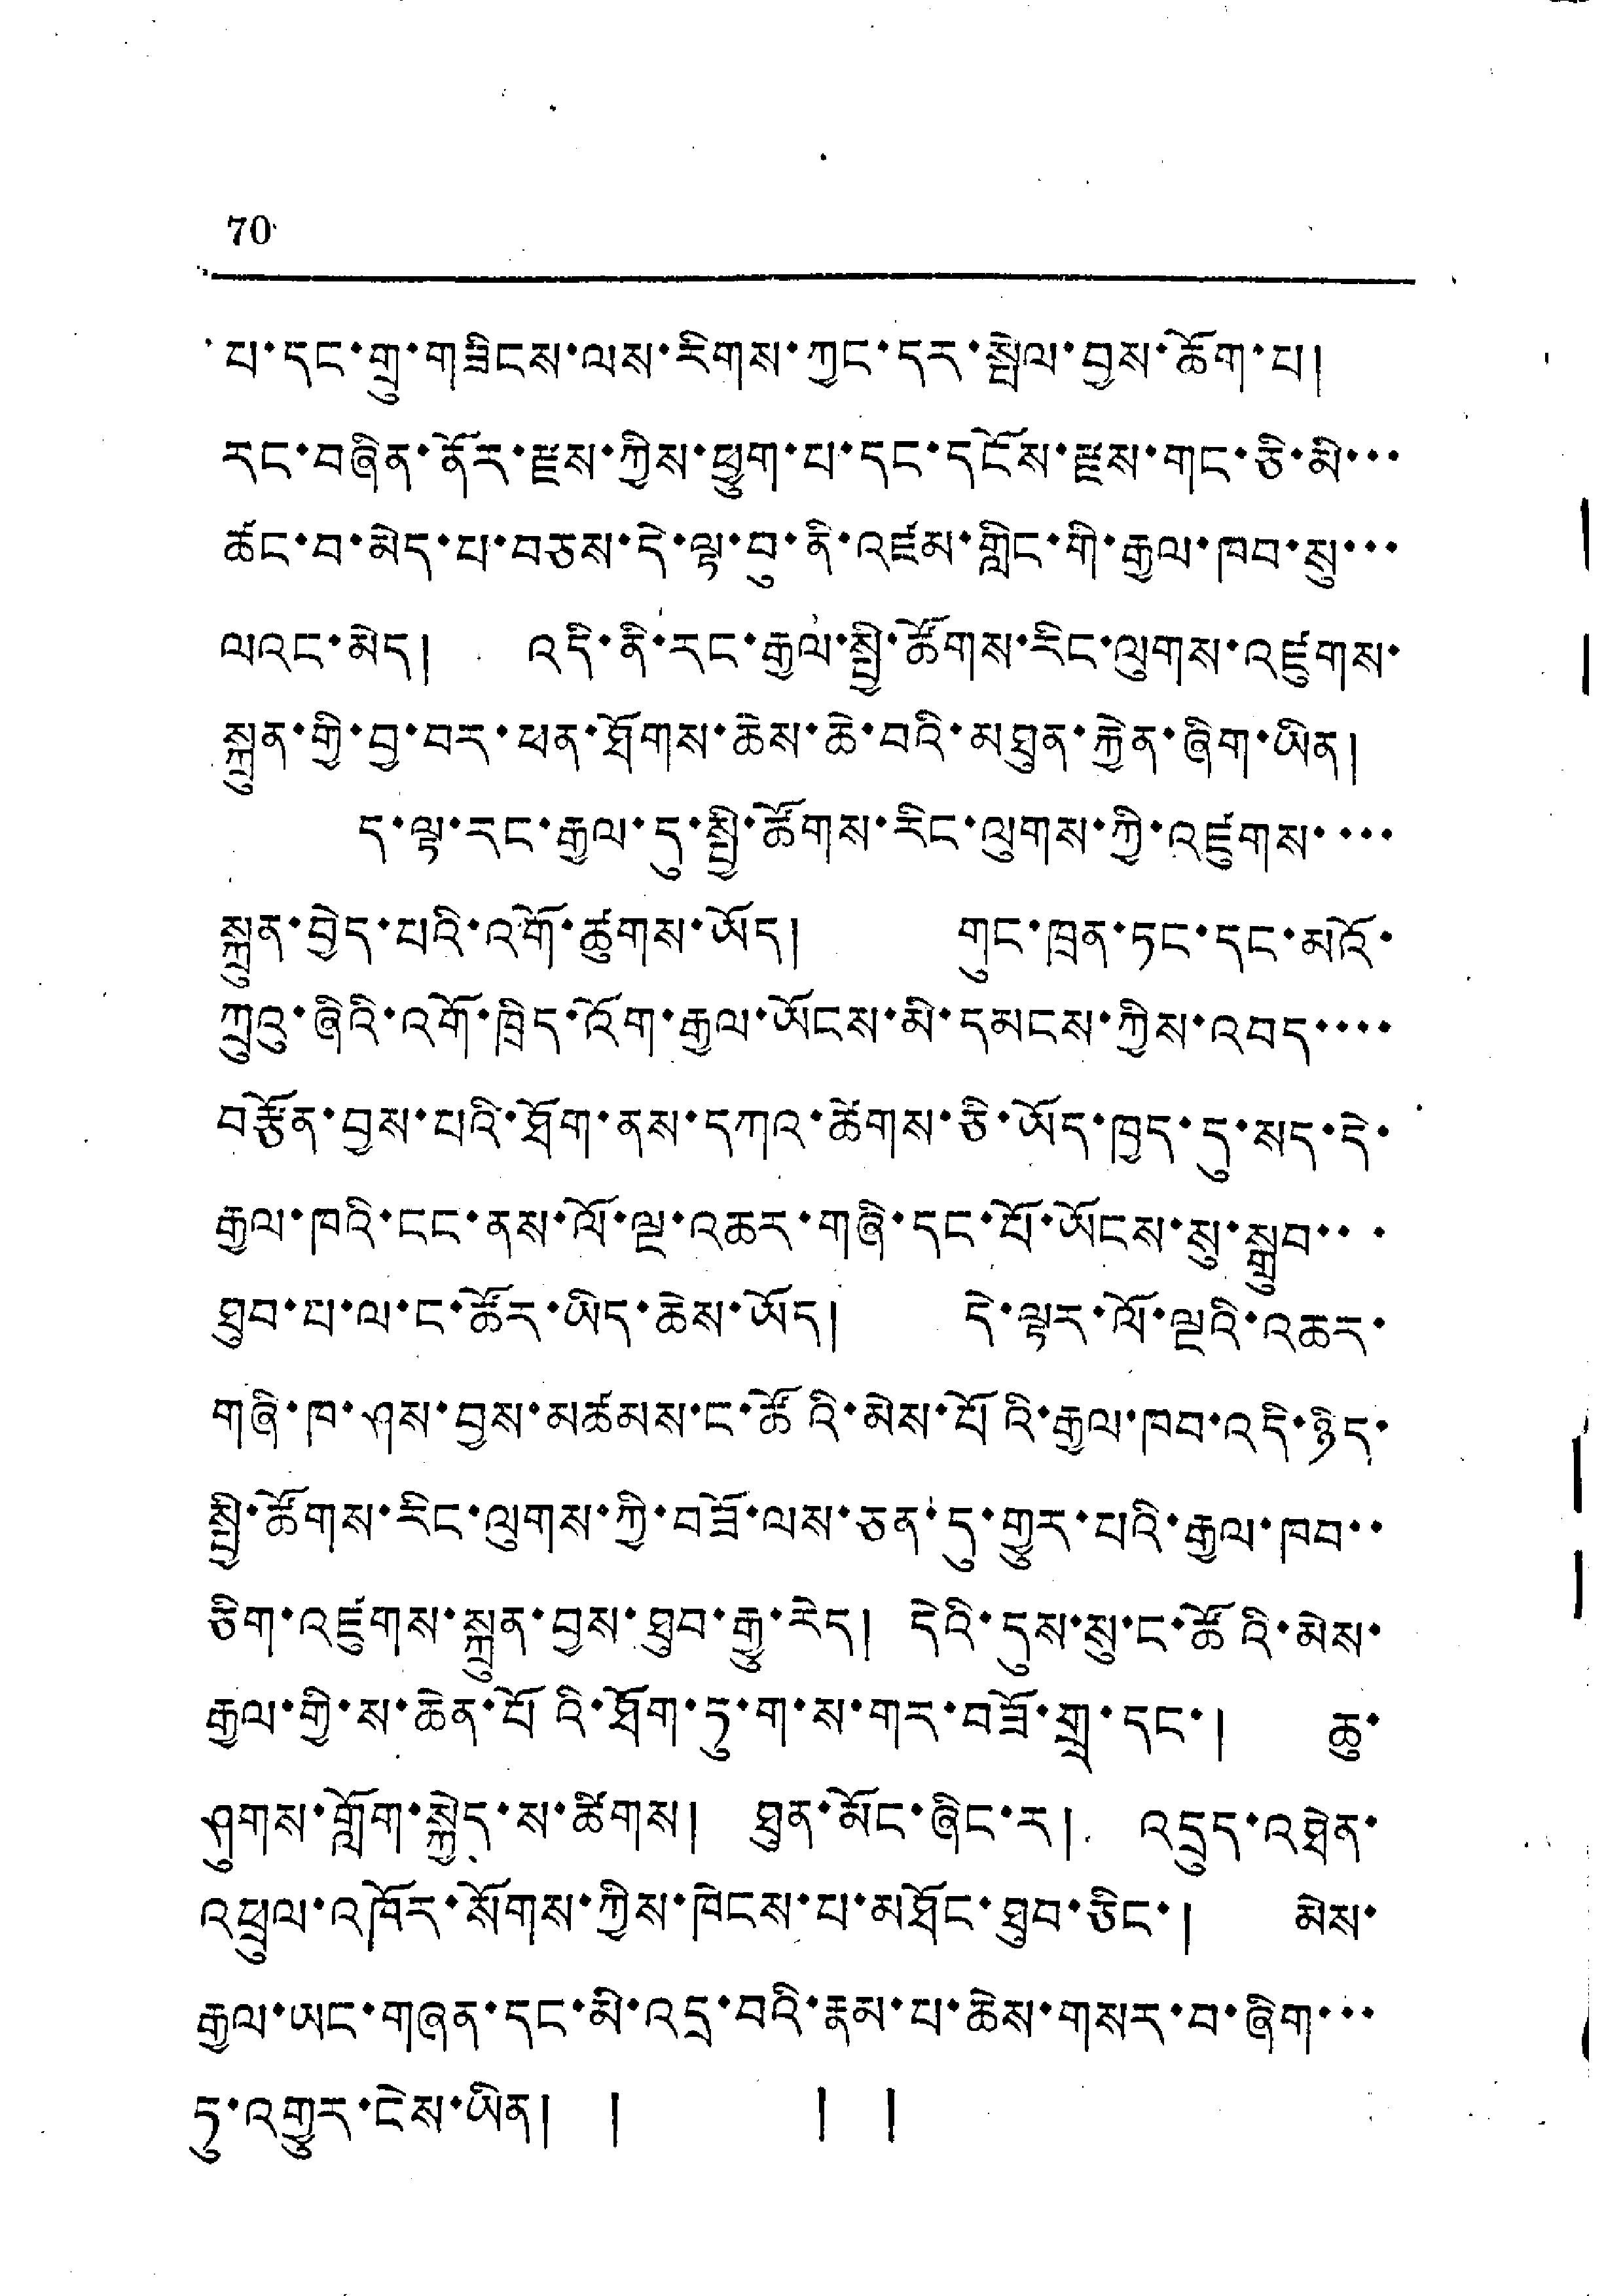70
པ་དང་གྲུ་གཟིངས་ལས་རིགས་ཀྱང་དར་སྤེལ་བྱས་ཆོག་པ།
རང་བཞིན་ནོར་རྫས་ཀྱིས་ཕྱུག་པ་དང་དངོས་རྫས་གང་ཅི་མི་་་
ཚང་བ་མེད་པ་བཅས་དེ་ལྟ་བུ་ནི་འཛམ་གླིང་གི་རྒྱལ་ཁབ་སུ་་་
ལའང་མེད། འདི་ནི་རང་རྒྱལ་སྤྱི་ཚོགས་རིང་ལུགས་འཛུགས་
སྐྲུན་གྱི་བྱ་བར་ཕན་ཐོགས་ཆེས་ཆེ་བའི་མཐུན་རྐྱེན་ཞིག་ཡིན།
ད་ལྟ་རང་རྒྱལ་དུ་སྤྱི་ཚོགས་རིང་ལུགས་ཀྱི་འཛུགས་་་་
སྐྲུན་བྱེད་པའི་འགོ་ཚུགས་ཡོད། གུང་ཁྲན་ཏང་དང་མའོ་
ཀྲུའུ་ཞིའི་འགོ་ཁྲིད་འོག་རྒྱལ་ཡོངས་མི་དམངས་ཀྱིས་འབད་་་་
བརྩོན་བྱས་པའི་ཐོག་ནས་དཀའ་ཚེགས་ཅི་ཡོད་ཁྱད་དུ་སད་དེ་
རྒྱལ་ཁའི་ངང་ནས་ལོ་ལྔ་འཆར་གཞི་དང་པོ་ཡོངས་སུ་སྒྲུབ་་་
ཐུབ་པ་ལ་ང་ཚོར་ཡིད་ཆེས་ཡོད། དེ་ལྟར་ལོ་ལྔའི་འཆར་
གཞི་ཁ་ཤས་བྱས་མཚམས་ང་ཚོའི་མེས་པོའི་རྒྱལ་ཁབ་འདི་ཉིད་་
སྤྱི་ཚོགས་རིང་ལུགས་ཀྱི་བཟོ་ལས་ཅན་དུ་གྱུར་པའི་རྒྱལ་ཁབ་་
ཅིག་འཛུགས་སྐྲུན་བྱས་ཐུབ་རྒྱུ་རེད། དེའི་དུས་སུ་ང་ཚོའི་མེས་
རྒྱལ་གྱི་ས་ཆེན་པོའི་ཐོག་ཏུ་ག་ས་གར་བཟོ་གྲྭ་དང་། ཆུ་
ཤུགས་གློག་སྐྱེད་ས་ཚིགས། ཐུན་མོང་ཞིང་ར། འདྲུད་འཐེན་
འཕྲུལ་འཁོར་སོགས་ཀྱིས་ཁེངས་པ་མཐོང་ཐུབ་ཅིང་། མེས་
རྒྱལ་ཡང་གཞན་དང་མི་འདྲ་བའི་རྣམ་པ་ཆེས་གསར་བ་ཞིག་་་
ཏུ་འགྱུར་ངེས་ཡིན། ། ། །
